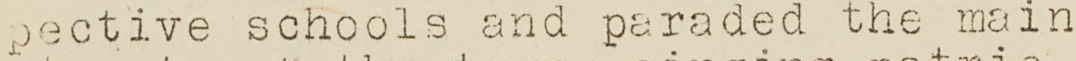pective schools and paraded the main
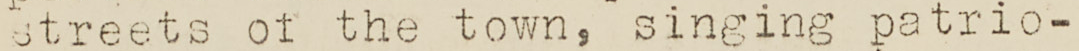streets of the town, singing patrio-
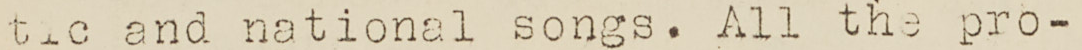tic and national songs. All the pro-
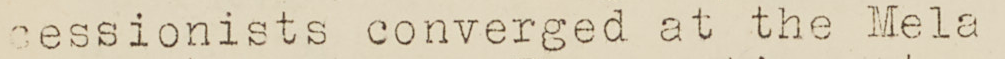cessionists converged at the Mela
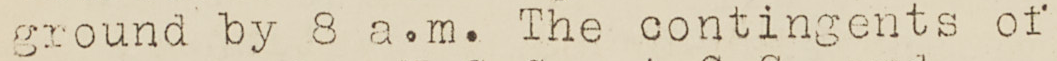ground by 8 a.m. The contingents of
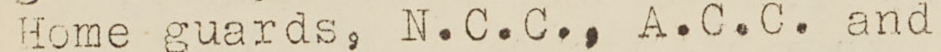Home guards, N.C.C., A.C.C. and
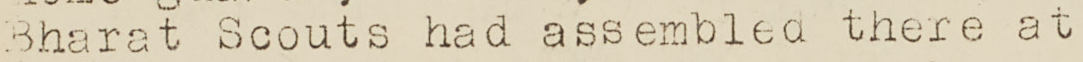Bharat Scouts had assembled there at
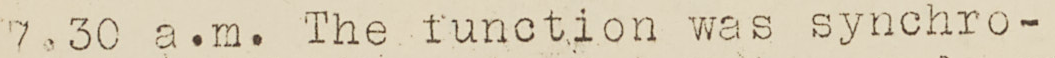7.30 a.m. The function was synchro-
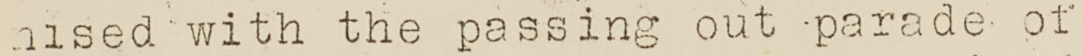nised with the passing out parade of
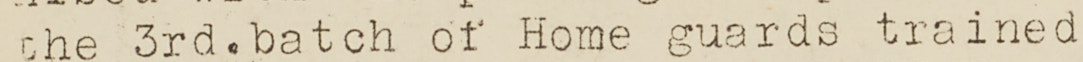the 3rd batch of Home guards trained
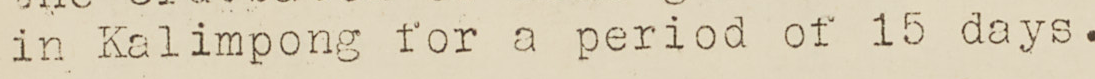in Kalimpong for a period of 15 days.
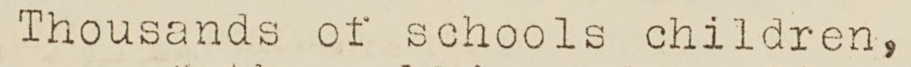Thousands of schools children,
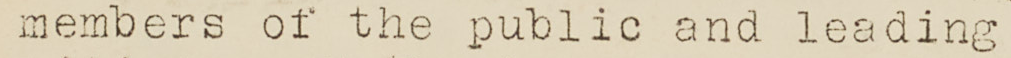members of the public and leading
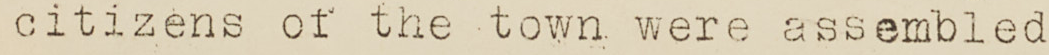citizens of the town were assembled
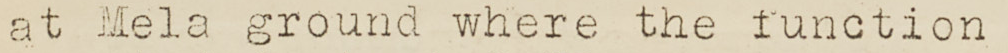at Mela ground where the function
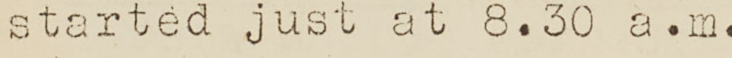started just at 8.30 a.m.
